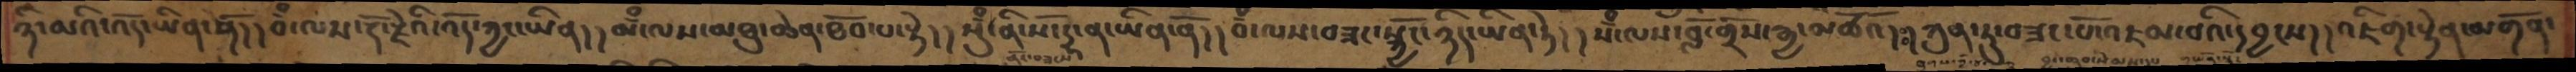ཉི་མའི་འོད་ཡིན་ནོ།།བྃ་ལས་རྡོ་རྗེའི་འོད་ཀྱང་ཡིན།།མྃ་ལས་མཐུ་ཆེན་ཐོབ་པ་སྟེ།།སུྃ་ནི་སོ་དྷ་ན་ཡིན་ནོ།།བྃ་ལས་བཟང་སྐྱོང་ཉིད་ཡིན་ཏེ།།སྃ་ལས་བློ་གྲོས་རྒྱ་མཚོའོ།ཿ །ཀུན་ཏུ་བཟང་པོ་འཇམ་བའི་དབྱངས།།འཇིག་རྟེན་མགོན་
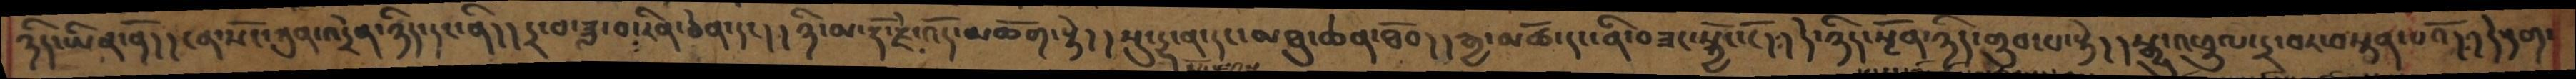ཉིད་ཡིན་ནོ།།ངན་སོང་ཀུན་འདྲེན་ཉིད་དང་ནི།།དྲ་བ་ཟླ་བ་རིན་ཅེན་དང།།ཉི་མ་རྡོ་རྗེ་འོད་མཆོག་སྟེ།།སུ་དྷ་ན་དང་མཐུ་ཆེན་ཐོབ།།རྒྱ་མཚོ་དང་ནི་བཟང་སྐྱོང་ངོ།།དེ་ཉིད་སྔོན་ཉིད་གྲུབ་པ་སྟེ།།སྒྱུ་འཕྲུལ་དྲ་བར་བསྟན་པའོ།།དེ་དག་
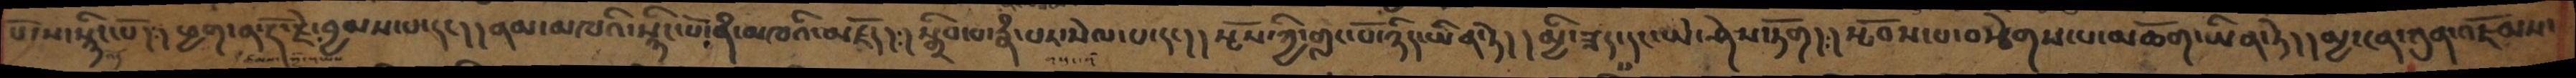པོ་ས་སྙིང་པོ།།ཕྱག་ན་རྡོ་རྗེ་བྱམས་པ་དང།།ནམ་མཁའི་སྙིང་པོ་ནཾ་མཁའི་མཛོད།།སྒྲིབ་པ་རྣཾ་པར་སེལ་པ་དང།།སྤོས་ཀྱི་གླང་པོ་ཉིད་ཡིན་ཏེ།།མྱི་ཟད་པ་དང་ཡེ་ཤེས་ཏོག།།སྤོབས་པ་བརྩེགས་པ་མཆོག་ཡིན་ཏེ།།མྱ་ངན་ཀུན་འཇོམས་
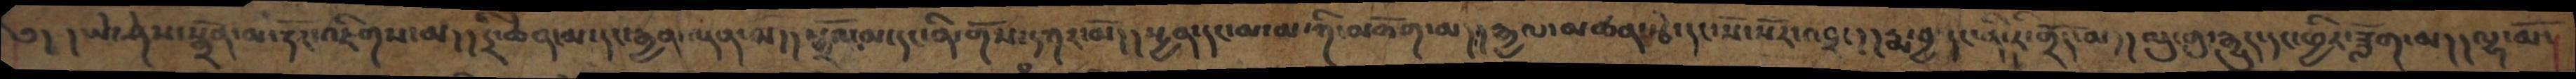༅།།ཡེ་ཤེས་སྒྲོན་མ་དོན་འཇིགས་མ།།དྲི་ཆེན་མ་དང་རྒྱན་ལྡན་མ།།སྒྲོལ་མ་དང་ནི་གོས་དཀར་མོ།།སྤྱན་དང་མ་མ་ཀི་མཆོག་མ།།རྒྱལ་མཚན་རྩེ་དང་སོ་སོར་འབྲང།།རྨ་བྱ་དང་ནི་རི་གྲོད་མ།།ལུ་གུ་རྒྱུད་དང་ཕྱིར་ཟློག་མ།།ལྷ་མོ་
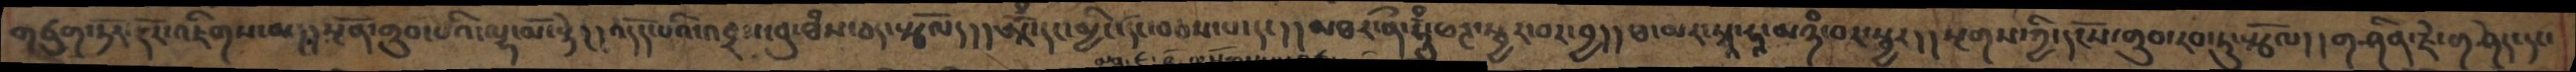གཙུག་ཏོར་རྡོར་འཇིགས་མ།།སྔོན་གྲུབ་པའི་ལྷ་མོ་སྟེ།།འདོད་པའི་འབྲས་བུ་ཐཾས་ཅད་སྩོལད།།ཨཱོྃ་དང་མྱིང་དང་བཅས་པ་དང།།མཐར་ནྀ་ཧཱུྃ་ཕཊ་སྦྱར་བར་བྱ།།ཕ་མར་སྭཱ་ཧཱ་མཉཾ་བར་སྦྱར།།སྔགས་ཀྱི་དངོས་གྲུབ་རབ་ཏུ་སྩོལ།།གཤིན་རྗེ་གཤེད་དང་
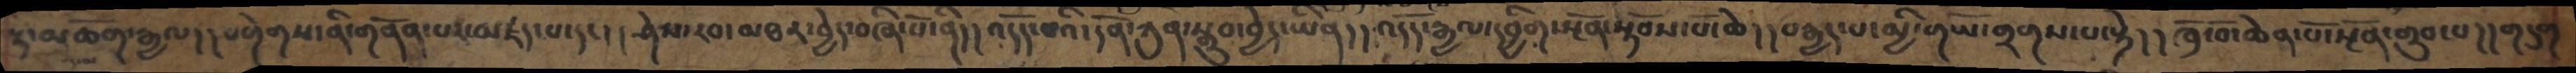ལྷ་མཆོག་རྒྱལ།།བགེགས་ནི་གནོན་པར་མཛད་པ་དང།།ཤེས་རབ་མཐར་བྱེད་བཞི་པོ་ནི།།འདོད་པའི་དོན་ཀུན་སྒྲུབ་བྱེད་ཡིན།།འདོད་རྒྱལ་དབྱིག་སྔོན་སྟོབས་པོ་ཆེ།།བརྒྱད་པ་མྱི་གཡོ་གྲགས་པ་སྟེ།།ཁྲོ་བོ་ཆེན་པོ་སྔོན་གྲུབ་པ།།གདུག
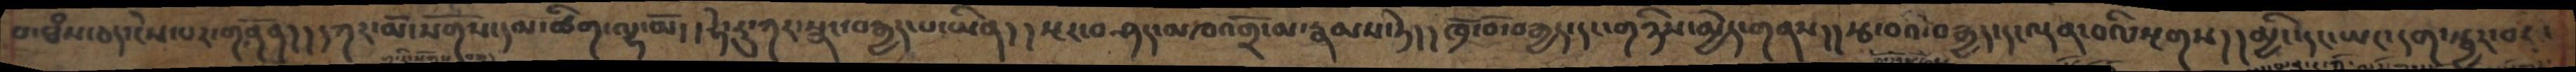པ་ཐཾས་ཅད་ངེས་པར་གནོན།།དཀར་མོ་སོགས་དམ་ཚིག་ལྷ་མོ།།ཧེ་རུ་ཀར་སྣང་བརྒྱད་པ་ཡིན།།སྔར་བཤད་མཁའགྲོ་མ་རྣམས་ཏེ།།ཁྲོ་བོ་བརྒྱད་དང་གཉིས་མྱེད་གནས།།རྩ་བའི་བརྒྱད་དང་ལྡན་བའི་སྔགས།།མྱི་དང་ཡང་དག་སྦྱར་བར་
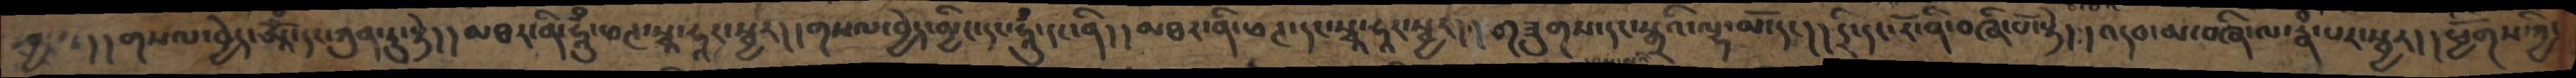བྱ །།གསལ་བྱེད་ཨཱོྃ་དང་ཀུན་ཏུ་སྟེ།།མཐར་ནི་ཧཱུྃ་ཕཊ་སྭཱ་ཧཱར་སྦྱར།།གསལ་བྱེད་མྱིང་དང་ཧཱུྃ་དང་ནི།།མཐར་ནི་ཕཊ་དང་སྭཱ་ཧཱར་སྦྱར།།གཟུགས་དང་སྒྲའི་ལྷ་མོ་དང།།དྲི་དང་རོ་ནི་བཞི་པོ་སྟེ།།འདབ་མ་བཞི་ལ་རྣཾ་པར་སྦྱར།།ཕྱོགས་ཀྱི་
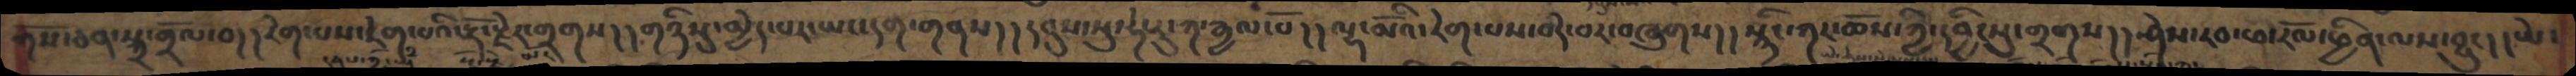གོས་ཅན་སྐྲ་གྲོལ་བ།།རེག་པས་དྲེག་པའི་རྡོ་རྗེར་གྲགས།།གཉིསུ་མྱེད་པར་ཡང་དག་གནས།།དབུས་སུ་ཧེ་རུ་ཀ་རྒྱལ་པོ།།ལྷ་མོའི་རེག་པས་བདེ་བར་བཞུགས།།སྙིང་ཀར་ཆོས་ཀྱི་དབྱིངསུ་གྲགས།།ཤེས་རབ་ཕ་རོལ་ཕྱིན་ལས་བྱུང།།ཡེ་
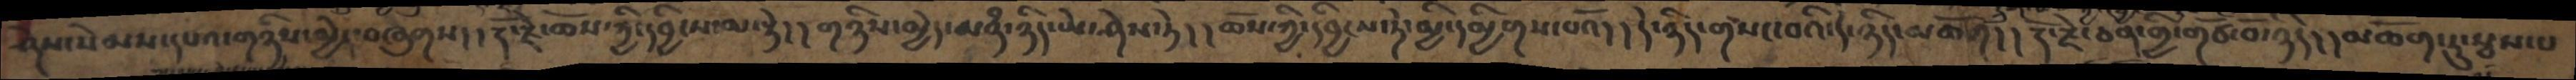ཤེས་སེམས་དཔའ་གཉིས་མྱེད་བཞུགས།།རྡོ་རྗེ་ཆོས་ཀྱི་དབྱིངས་ལ་སྟེ།།གཉིས་མྱེད་མཉཾ་ཉིད་ཡེ་ཤེས་ཏེ།།ཆོས་ཀྱི་དབྱིངས་ཏེ་མྱི་དམྱིགས་པའོ།།དེ་ཉིད་གསང་བའི་དེ་ཉིད་མཆོག།།རྡོ་རྗེ་ཅན་གྱི་གཙོ་བོ་ཉིད།།མཆོག་ཏུ་སྦས་པ་
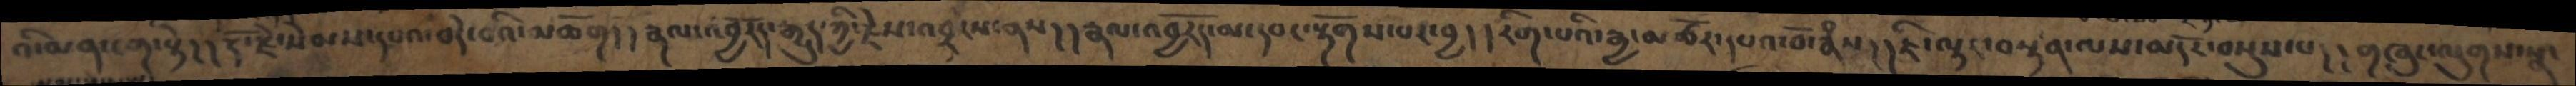འི་མན་ངག་སྟེ།།རྡོ་རྗེ་སེམས་དཔའ་བདེ་བའི་མཆོག།།རྣལ་འབྱོརད་རྒྱུད་ཀྱི་རྗེས་འབྲངས་ནས།།རྣལ་འབྱོརད་མ་དབང་རྟོགས་པར་བྱ།།རིག་པའི་རྒྱ་མཚོར་དཔའ་བོ་རྣཾས།།ཇི་ལྟར་བསྟན་ལས་མདོར་བསྡུས་པ།།གཞུང་ལུགས་སྣ་
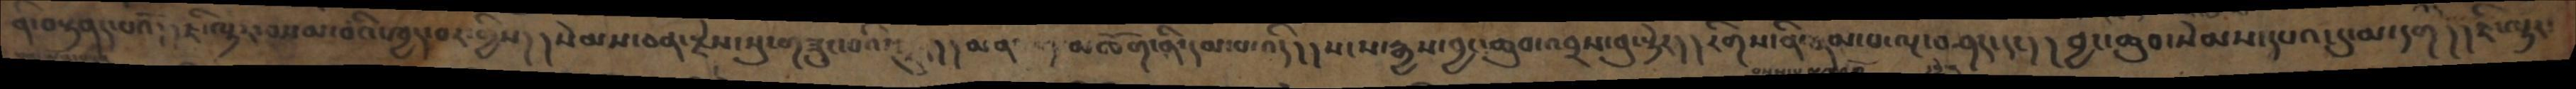ནི་བསྟནད་པའོ།།ཇི་ལྟར་བསམ་བའི་ཁྱད་པར་གྱིས།།སེམས་ཅན་རྗེས་སུ་གཟུང་བའིའཇུག། །མན་ངག་མཆོག་ནི་དམ་པ་འདི།།སངས་རྒྱས་བྱང་ཆུབ་འབྲས་བུ་སྟེར།།རིགས་ནི་རྣམ་པ་ལྔ་བཤད་དང།།བྱང་ཆུབ་སེམས་དཔའ་དུ་མ་དག།།ཇི་ལྟར་
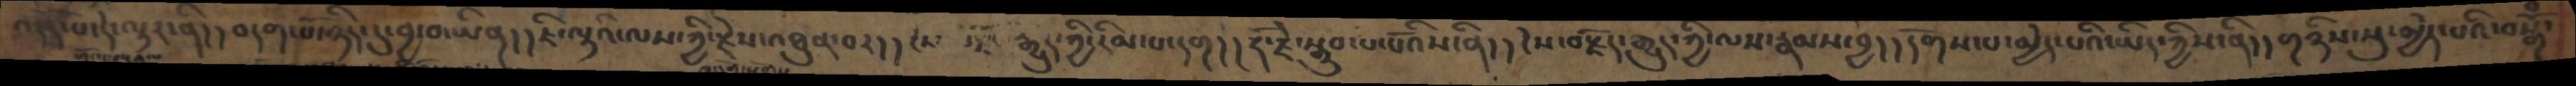འདོད་པ་དེ་ལྟར་ནི།།བདག་པོ་ཉིད་དུ་བྱ་བ་ཡིན།།ཇི་ལྟའི་ལས་ཀྱི་རྗེས་འཐུན་བར།།ངེས་བརྗོད་རྒྱུད་ཀྱི་རིམ་པ་དག།།རྡོ་རྗེ་སྒྲུབ་པ་པོའིས་ནི།།ངེས་བརྗོད་རྒྱུད་ཀྱི་ལས་རྣམས་བྱ།།དགོས་པ་མྱེད་པའི་ཡིད་ཀྱིས་ནི།།གཉིས་སུ་མྱེད་པའི་བསྒོཾ་
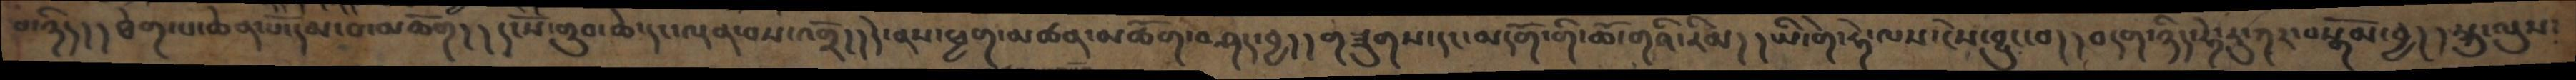བ་ཉིད།།ཐེག་པ་ཆེན་པོ་དམ་པ་མཆོག།།དངོས་གྲུབ་ཆེ་དང་ལྡན་བས་འགྲོ།།དེ་ནས་ཕྱག་མཚན་མཆོག་བཤདདབྱ།།གཟུགས་དང་མདོག་གི་ཆོ་གའི་རིམ།།ཡི་གེ་ཧེ་ལས་ངེས་བྱུང་བ།།བདག་ཉིད་ཧེ་རུ་ཀར་བསྒོམ་བྱ།།སྐུ་ལུས་
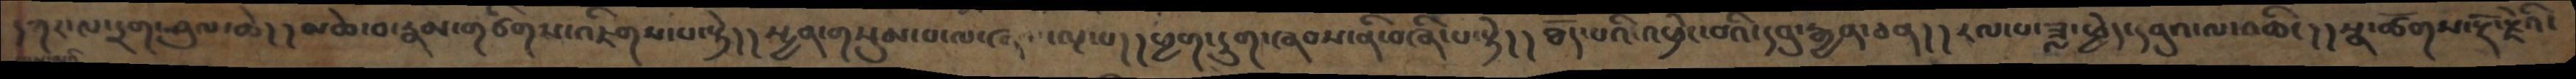དཀར་ལ་དྲག་ཤུལ་ཆེ།།མཆེ་བ་རྣམ་གཙིགས་འཇིགས་པ་སྟེ།།སྤྱན་གསུམ་པ་ལ་ཞལ་ལྔ་པ།།ཕྱག་དྲུག་ཞབས་ནི་བཞི་པ་སྟེ།།ཐོད་པའི་འཕྲེང་བའི་དབུ་རྒྱན་ཅན།།རལ་པ་ཟླ་ཕྱེད་དབུའ་ལ་འཆིང།།སྣ་ཚོགས་རྡོ་རྗེའི་
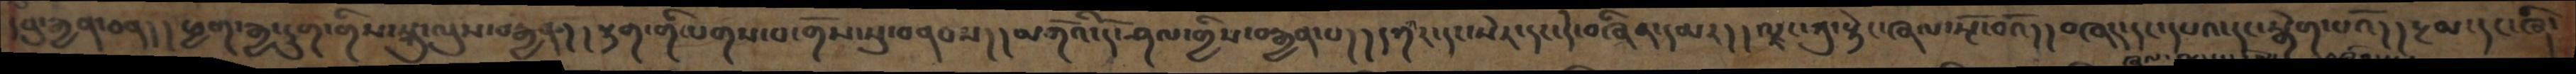དབུ་རྒྱན་ཅན།།ཕྱག་རྒྱ་དྲུག་གིས་སྐུ་ལུས་བརྒྱན།།སྟག་གི་པགས་པ་གོས་སུ་བནབས།།མགོའི་དོ་ཤལ་གྱིས་བརྒྱན་པ།།དཀར་དང་སེར་དང་དེ་བཞིན་དམར།།ལྗང་ཀུ་སྟེང་ཞལ་སྔོ་བའོ།།བཞད་དང་དཔའ་དང་སྒེག་པའོ།།རྔམ་དང་ཞི་
